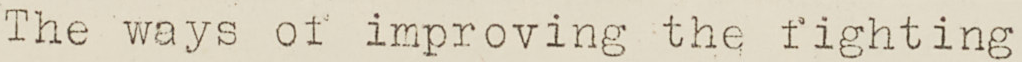The ways of improving the fighting
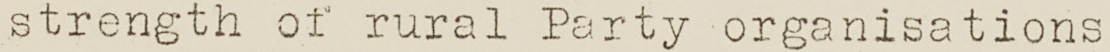strength of rural Party organisations
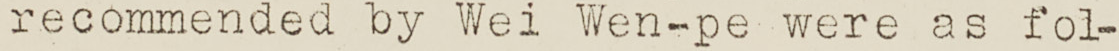recommended by Wei Wen-pe were as fol-
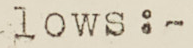lows: -
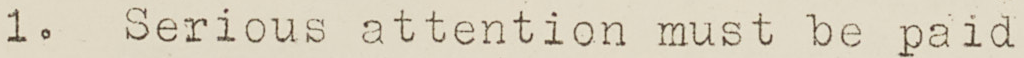1. Serious attention must be paid
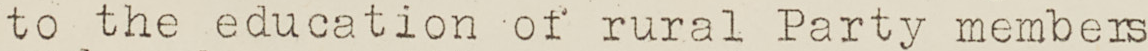to the education of rural Party members
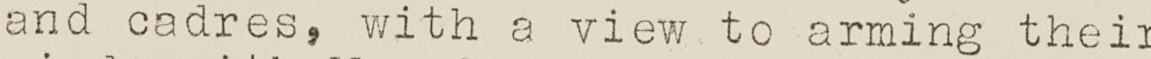and cadres, with a view to arming their
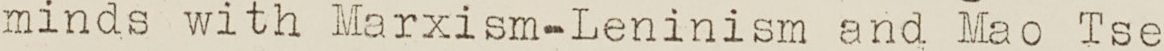minds with Marxism-Leninism and Mao Tse
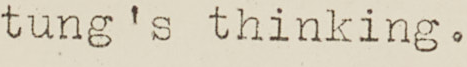tung's thinking.
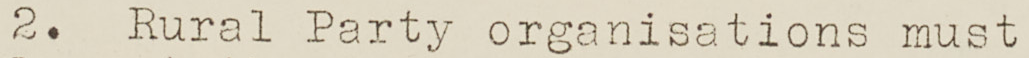2. Rural Party organisations must
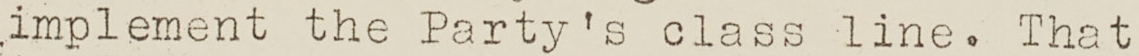implement the Party's class line. That
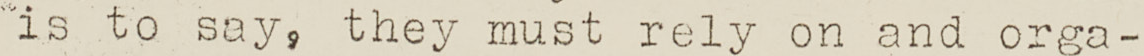is to say, they must rely on and orga-
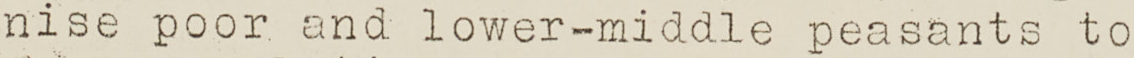nise poor and lower-middle peasants to
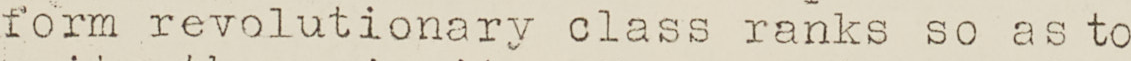form revolutionary class ranks so as to
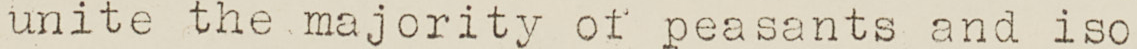unite the majority of peasants and iso
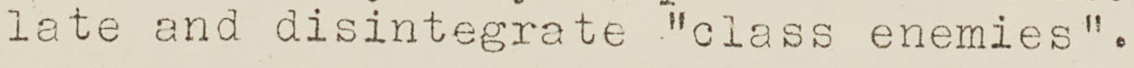late and disintegrate "class enemies"
